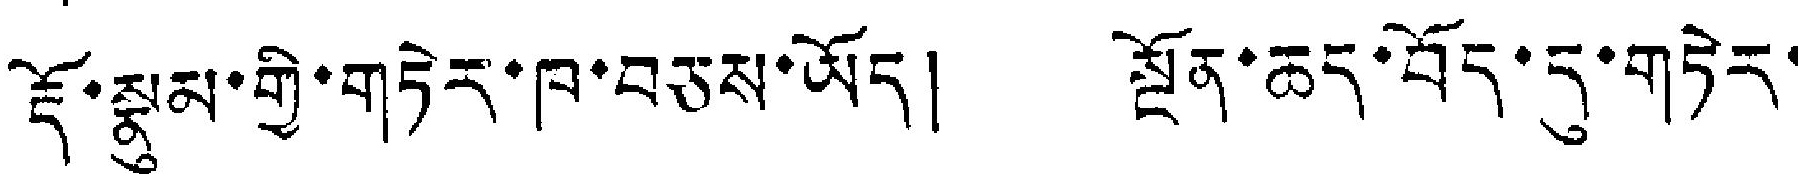རྡོ་སྣུམ་གྱི་གཏེར་ཁ་བཅས་ཡོད། སྔོན་ཆད་བོད་དུ་གཏེར་
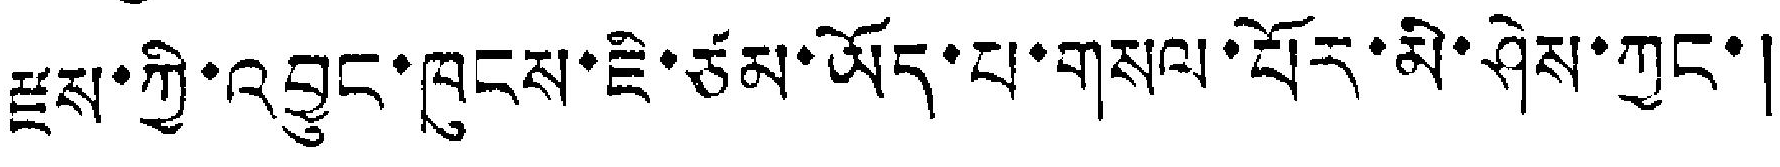རྫས་ཀྱི་འབྱུང་ཁུངས་ཇི་ཙམ་ཡོད་པ་གསལ་པོར་མི་ཤེས་ཀྱང་།
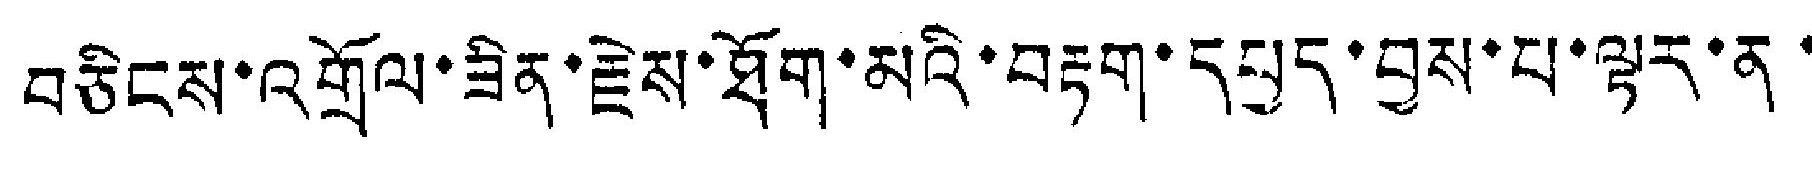བཅིངས་འགྲོལ་ཟིན་རྗེས་ཐོག་མའི་བརྟག་དཔྱད་བྱས་པ་ལྟར་ན་
